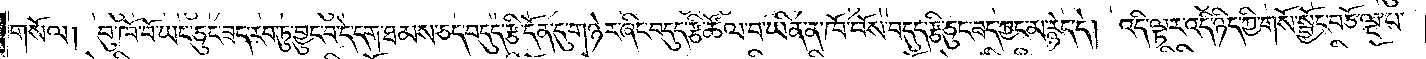གསོལ། བུ་ཁོ་བོ་ཡང་ཅུང་ཟད་རབ་ཏུ་བྱུང་བ་དེ་དག་ཐམས་ཅད་བདུད་རྩི་དོན་དུ་གཉེར་ཞིང་བདུད་རྩི་ཚོལ་བ་ཡིན་ན་ཁོ་བོས་བདུད་རྩི་ཅུང་ཟད་ཀྱང་མ་རྙེད་དེ། འདི་ལྟར་འདི་ཉིད་ཀྱི་གསོ་སྦྱོང་བཅོ་ལྔ་པ་
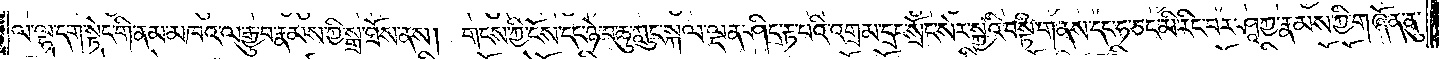ལ་ལྷ་དག་སྟེང་གི་ནམ་མཁའ་ལ་རྒྱུ་བ་རྣམས་ཀྱི་སྒྲ་ཐོས་ནས། གངས་ཀྱི་ངོས་དང་ཉེ་བ་ཆུ་ཀླུང་སྐལ་ལྡན་ཤིང་རྟ་པའི་འགྲམ་དྲང་སྲོང་སེར་སྐྱའི་བསྟི་གནས་དང་ཧ་ཅང་མི་རིང་བར་ཤཱཀྱ་རྣམས་ཀྱི་གཞོན་ནུ་
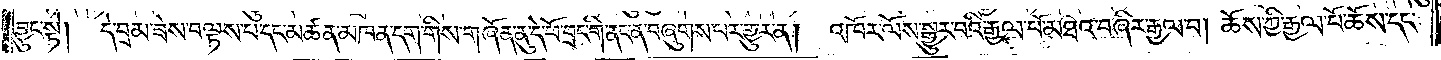བྱུང་སྟེ།  དེ་བྲམ་ཟེས་བལྟས་པ་དང་མཚན་མཁན་དག་གིས་གཞོན་ནུ་དེ་ཕོ་བྲང་གི་ནང་ན་བཞུགས་པར་གྱུར་ན།  འཁོར་ལོས་སྒྱུར་བའི་རྒྱལ་པོ་མཐའ་བཞིར་རྒྱལ་བ། ཆོས་ཀྱི་རྒྱལ་པོ་ཆོས་དང་
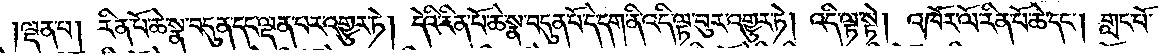ལྡན་པ། རིན་པོ་ཆེ་སྣ་བདུན་དང་ལྡན་པར་འགྱུར་ཏེ། དེའི་རིན་པོ་ཆེ་སྣ་བདུན་པོ་དེ་དག་ནི་འདི་ལྟ་བུར་འགྱུར་ཏེ། འདི་ལྟ་སྟེ། འཁོར་ལོ་རིན་པོ་ཆེ་དང༌། གླང་པོ་
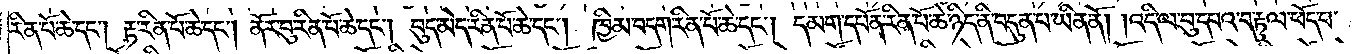རིན་པོ་ཆེ་དང༌། རྟ་རིན་པོ་ཆེ་དང༌། ནོར་བུ་རིན་པོ་ཆེ་དང༌། བུད་མེད་རིན་པོ་ཆེ་དང༌། ཁྱིམ་བདག་རིན་པོ་ཆེ་དང༌། དམག་དཔོན་རིན་པོ་ཆེ་ཉིད་ནི་བདུན་པ་ཡིན་ནོ། །འདི་ལ་བུ་དཔའ་བ་རྟུལ་ཕོད་པ་
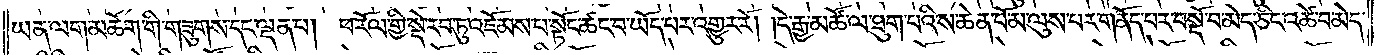ཡན་ལག་མཆོག་གི་གཟུགས་དང་ལྡན་པ། ཕ་རོལ་གྱི་སྡེ་རབ་ཏུ་འཇོམས་པ་སྟོང་ཚང་བ་ཡོད་པར་འགྱུར་རོ། །དེ་རྒྱ་མཚོ་ལ་ཐུག་པའི་ས་ཆེན་པོ་མ་ལུས་པར་གནོད་པར་བསྡོ་བ་མེད་ཅིང་འཚེ་བ་མེད་
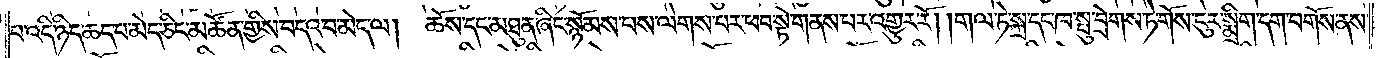པ་འདི་ཉིད་ཆད་པ་མེད་ཅིང་མཚོན་གྱིས་བདའ་བ་མེད་ལ། ཆོས་དང་མཐུན་ཞིང་སྙོམས་པས་ལེགས་པར་ཕབ་སྟེ་གནས་པར་འགྱུར་རོ། །གལ་ཏེ་སྐྲ་དང་ཁ་སྤུ་བྲེགས་ཏེ་གོས་ངུར་སྨྲིག་དག་བགོས་ནས་
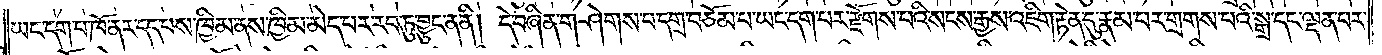ཡང་དག་པ་ཁོ་ནར་དད་པས་ཁྱིམ་ནས་ཁྱིམ་མེད་པར་རབ་ཏུ་བྱུང་ན་ནི། དེ་བཞིན་གཤེགས་པ་དགྲ་བཅོམ་པ་ཡང་དག་པར་རྫོགས་པའི་སངས་རྒྱས་འཇིག་རྟེན་དུ་རྣམ་པར་གྲགས་པའི་སྒྲ་དང་ལྡན་པར་
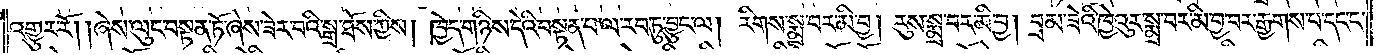འགྱུར་རོ། །ཞེས་ལུང་བསྟན་ཏོ་ཞེས་ཟེར་བའི་སྒྲ་ཐོས་ཀྱིས། ཁྱེད་གཉིས་དེའི་བསྟན་པ་ལ་རབ་ཏུ་བྱུང་ལ། རིགས་སྨྲ་བར་མི་བྱ། རུས་སྨྲ་བར་མི་བྱ། བྲམ་ཟེའི་ཁྱེའུར་སྨྲ་བར་མི་བྱ་བར་རྒྱགས་པ་དང་ང་
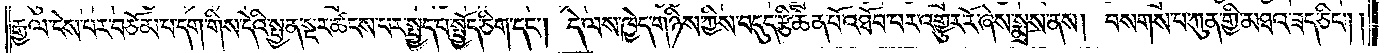རྒྱལ་ངེས་པར་བཅོམ་པ་དག་གིས་དེའི་སྤྱན་སྔར་ཚངས་པར་སྤྱད་པ་སྤྱོད་ཅིག་དང༌། དེ་ལས་ཁྱེད་གཉིས་ཀྱིས་བདུད་རྩི་ཆེན་པོ་འཐོབ་པར་འགྱུར་རོ་ཞེས་སྨྲས་ནས། བསགས་པ་ཀུན་གྱི་མཐའ་ཟད་ཅིང༌། །
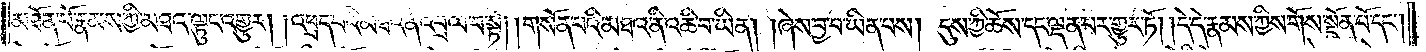མཐོན་པོ་རྣམས་ཀྱི་མཐའ་ལྟུང་འགྱུར། །འཕྲད་པའི་མཐའ་ནི་འབྲལ་བ་སྟེ། །གསོན་པའི་མཐའ་ནི་འཆི་བ་ཡིན། །ཞེས་བྱ་བ་ཡིན་པས། དུས་ཀྱི་ཆོས་དང་ལྡན་པར་གྱུར་ཏོ། །དེ་དེ་རྣམས་ཀྱིས་གོས་སྔོན་པོ་དང༌།
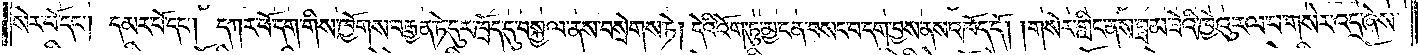སེར་པོ་དང༌། དམར་པོ་དང༌། དཀར་པོ་དག་གིས་ཁྱོགས་བརྒྱན་ཏེ་དུར་ཁྲོད་དུ་བསྐྱལ་ནས་བསྲེགས་ཏེ། དེའི་འོག་ཏུ་མྱ་ངན་བསང་བ་དག་བྱས་ནས་འཁོད་དོ། །གསེར་གླིང་ནས་བྲམ་ཟེའི་ཁྱེའུ་རལ་པ་གསེར་འདྲ་ཞེས་
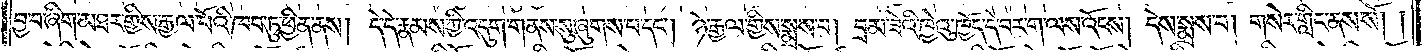བྱ་བ་ཞིག་མཐར་གྱིས་རྒྱལ་པོའི་ཁབ་ཏུ་ཕྱིན་ནས། དེ་དེ་རྣམས་ཀྱི་འདུག་གནས་སུ་ཞུགས་པ་དང༌། ཉེ་རྒྱལ་གྱིས་སྨྲས་པ། བྲམ་ཟེའི་ཁྱེའུ་ཁྱོད་དེ་བར་ག་ལས་འོངས། དེས་སྨྲས་པ། གསེར་གླིང་ནས་སོ། །
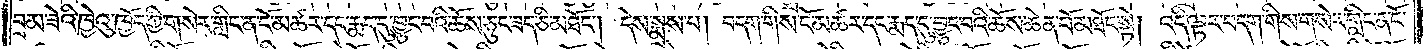བྲམ་ཟེའི་ཁྱེའུ་ཁྱོད་ཀྱི་གསེར་གླིང་ན་ངོ་མཚར་དང་རྨད་དུ་བྱུང་བའི་ཆོས་ཅུང་ཟད་ཅི་མཐོང༌། དེས་སྨྲས་པ། བདག་གིས་ངོ་མཚར་དང་རྨད་དུ་བྱུང་བའི་ཆོས་ཆེན་པོ་མཐོང་སྟེ། འདི་ལྟར་བདག་གིས་གསེར་གླིང་ན་ངོ་
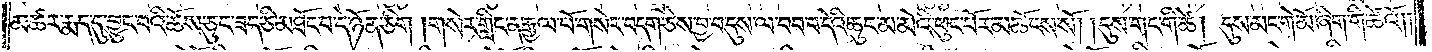མཚར་རྨད་དུ་བྱུང་བའི་ཆོས་ཅུང་ཟད་ཅི་མཐོང་བ་དེ་ཉོན་ཅིག །གསེར་གླིང་ན་རྒྱལ་པོ་གསེར་བདག་ཅེས་བྱ་བ་དུས་ལ་བབ་བ་དེའི་ཆུང་མ་མེའི་ཕུང་པོར་མཆོངས་སོ། །དུས་གང་གི་ཚེ། དུས་མང་གེ་མོ་ཞིག་གི་ཚེའོ༎
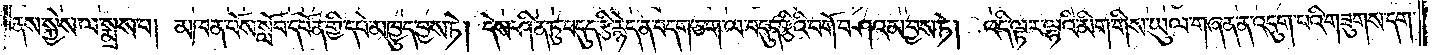ནས་སྐྱེས་ལ་སྨྲས་པ། མཁན་པོས་སློབ་དཔོན་གྱི་དཔེ་མཁྱུད་བྱས་ཏེ། དེས་ཤིན་ཏུ་བདུད་རྩི་རྙེད་ན་བདག་ཅག་ལ་བདུད་རྩིའི་བགོ་བཤའ་མ་བྱས་ཏེ། འདི་ལྟར་ལྷའི་མིག་གིས་ཡུལ་གཞན་ན་འདུག་པའི་གཟུགས་དག་
